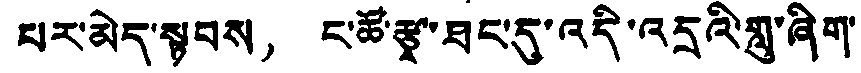པར་མེད་སྟབས， ང་ཚོ་རྩྭ་ཐང་དུ་འདི་འདྲའི་གླུ་ཞིག་
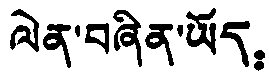ལེན་བཞིན་ཡོད：
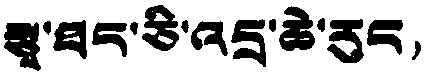ལྩྭ་ཐང་ཅི་འདྲ་ཆེ་རུང；
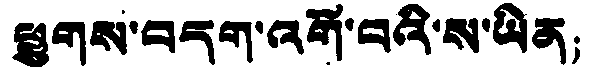ཕྱུགས་བདག་འགོ་བའི་ས་ཡིན；
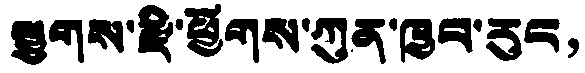ཕྱུགས་རྫེ་ཕྱོགས་ཀུན་ཁྱབ་རུང，
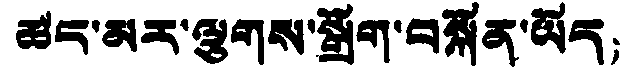ཚད་མར་ལྕགས་སྒྲོག་བསྐྲོན་ཡོད；
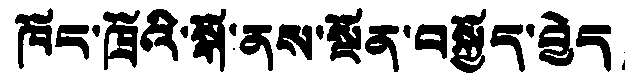ཁོང་ཁྲོའི་སྒོ་ནས་སྔོན་བསྐྱོད་བྱེད，
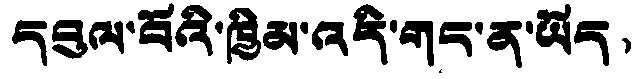དབུལ་བོའི་ཁྱིམ་འདི་གང་ན་ཡོད，
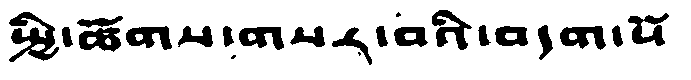སྤྱི་ཚོགས་གསར་བའི་བདག་པོ
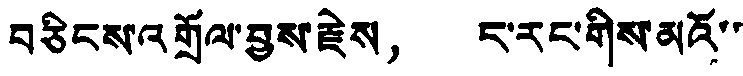བཅིངས་འགྲོལ་བྱས་རྗེས， ང་རང་གིས་མའོ་་
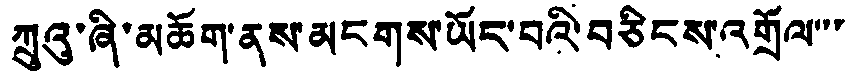ཀྲུའུ་ཞི་མཆོག་ནས་མངགས་ཡོང་བའི་བཅིངས་འགྲོལ་་་
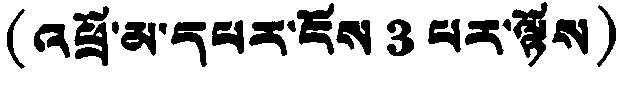(འཕྲོ་མ་དཔར་ངོས 3 པར་ལྟོས)
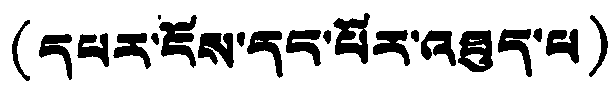(དཔར་ངོས་དང་པོར་འཐུད་ལ)
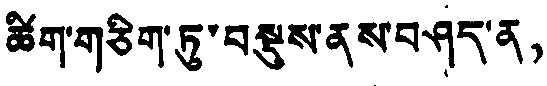ཚིག་གཅིག་ཏུ་བསྡུས་ནས་བཤད་ན，
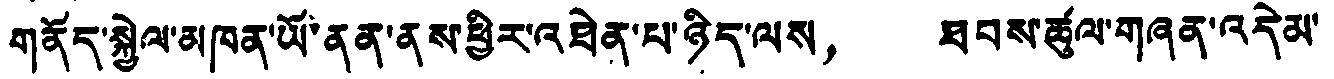གནོད་སྐྱེལ་མཁན་ཡོ་ནན་ནས་ཕྱིར་འཐེན་པ་ཉིད་ལས， ཐབས་ཚུལ་གཞན་འདེམ་
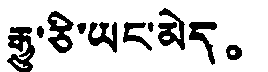རྒྱུ་ཅི་ཡང་མེད。
